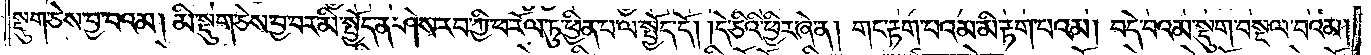སྡུག་ཅེས་བྱ་བའམ། མི་སྡུག་ཅེས་བྱ་བར་མི་སྤྱོད་ན་ཤེས་རབ་ཀྱི་ཕ་རོལ་ཏུ་ཕྱིན་པ་ལ་སྤྱོད་དོ། །དེ་ཅིའི་ཕྱིར་ཞེ་ན། གང་རྟག་པའམ་མི་རྟག་པའམ། བདེ་བའམ་སྡུག་བསྔལ་པའམ།
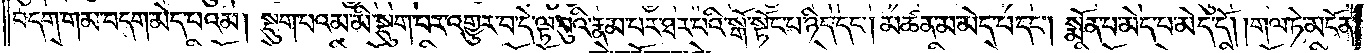བདག་གམ་བདག་མེད་པའམ། སྡུག་པའམ་མི་སྡུག་པར་འགྱུར་བདེ་ལྟ་བུའི་རྣམ་པར་ཐར་པའི་སྒོ་སྟོང་པ་ཉིད་དང༌། མཚན་མ་མེད་པ་དང༌། སྨོན་པ་མེད་པ་མེད་དོ། །གལ་ཏེ་མངོན་
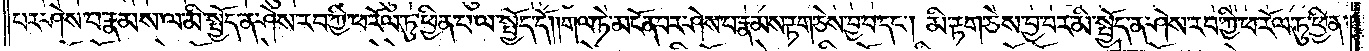པར་ཤེས་པ་རྣམས་ལ་མི་སྤྱོད་ན་ཤེས་རབ་ཀྱི་ཕ་རོལ་ཏུ་ཕྱིན་པ་ལ་སྤྱོད་དོ། །གལ་ཏེ་མངོན་པར་ཤེས་པ་རྣམས་རྟག་ཅེས་བྱ་བ་དང༌། མི་རྟག་ཅེས་བྱ་བར་མི་སྤྱོད་ན་ཤེས་རབ་ཀྱི་ཕ་རོལ་ཏུ་ཕྱིན་
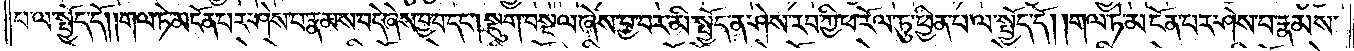པ་ལ་སྤྱོད་དོ། །གལ་ཏེ་མངོན་པར་ཤེས་པ་རྣམས་བདེ་ཞེས་བྱ་བ་དང༌། སྡུག་བསྔལ་ཞེས་བྱ་བར་མི་སྤྱོད་ན་ཤེས་རབ་ཀྱི་ཕ་རོལ་ཏུ་ཕྱིན་པ་ལ་སྤྱོད་དོ། །གལ་ཏེ་མངོན་པར་ཤེས་པ་རྣམས་
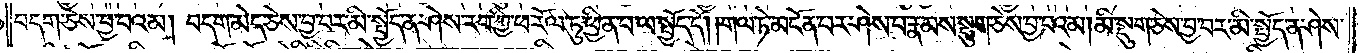བདག་ཅེས་བྱ་བའམ། བདག་མེད་ཅེས་བྱ་བར་མི་སྤྱོད་ན་ཤེས་རབ་ཀྱི་ཕ་རོལ་ཏུ་ཕྱིན་པ་ལ་སྤྱོད་དོ། །གལ་ཏེ་མངོན་པར་ཤེས་པ་རྣམས་སྡུག་ཅེས་བྱ་བའམ། མི་སྡུག་ཅེས་བྱ་བར་མི་སྤྱོད་ན་ཤེས་
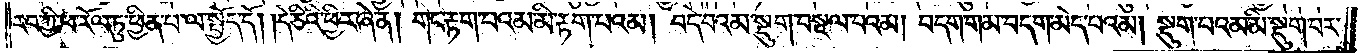རབ་ཀྱི་ཕ་རོལ་ཏུ་ཕྱིན་པ་ལ་སྤྱོད་དོ། །དེ་ཅིའི་ཕྱིར་ཞེ་ན། གང་རྟག་པའམ་མི་རྟག་པའམ། བདེ་བའམ་སྡུག་བསྔལ་བའམ། བདག་གམ་བདག་མེད་པའམ། སྡུག་པའམ་མི་སྡུག་པར་
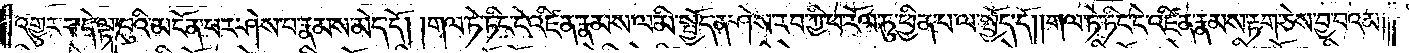འགྱུར་བ་དེ་ལྟ་བུའི་མངོན་པར་ཤེས་པ་རྣམས་མེད་དོ། །གལ་ཏེ་ཏིང་ངེ་འཛིན་རྣམས་ལ་མི་སྤྱོད་ན་ཤེས་རབ་ཀྱི་ཕ་རོལ་ཏུ་ཕྱིན་པ་ལ་སྤྱོད་དོ། །གལ་ཏེ་ཏིང་ངེ་འཛིན་རྣམས་རྟག་ཅེས་བྱ་བའམ།
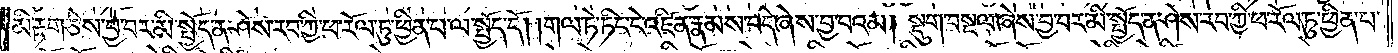མི་རྟག་ཅེས་བྱ་བར་མི་སྤྱོད་ན་ཤེས་རབ་ཀྱི་ཕ་རོལ་ཏུ་ཕྱིན་པ་ལ་སྤྱོད་དོ། །གལ་ཏེ་ཏིང་ངེ་འཛིན་རྣམས་བདེ་ཞེས་བྱ་བའམ། སྡུག་བསྔལ་ཞེས་བྱ་བར་མི་སྤྱོད་ན་ཤེས་རབ་ཀྱི་ཕ་རོལ་ཏུ་ཕྱིན་པ་
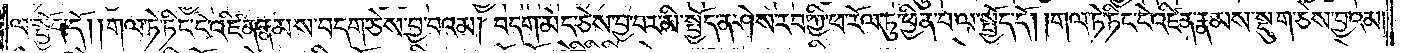ལ་སྤྱོད་དོ། །གལ་ཏེ་ཏིང་ངེ་འཛིན་རྣམས་བདག་ཅེས་བྱ་བའམ། བདག་མེད་ཅེས་བྱ་བར་མི་སྤྱོད་ན་ཤེས་རབ་ཀྱི་ཕ་རོལ་ཏུ་ཕྱིན་པ་ལ་སྤྱོད་དོ། །གལ་ཏེ་ཏིང་ངེ་འཛིན་རྣམས་སྡུག་ཅེས་བྱའམ།
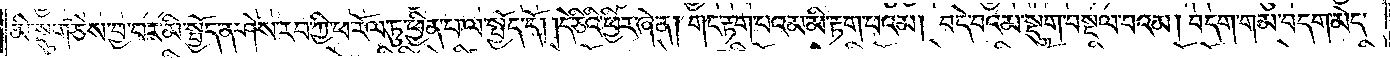མི་སྡུག་ཅེས་བྱ་བར་མི་སྤྱོད་ན་ཤེས་རབ་ཀྱི་ཕ་རོལ་ཏུ་ཕྱིན་པ་ལ་སྤྱོད་དོ། །དེ་ཅིའི་ཕྱིར་ཞེ་ན། གང་རྟག་པའམ་མི་རྟག་པའམ། བདེ་བའམ་སྡུག་བསྔལ་བའམ། བདག་གམ་བདག་མེད་
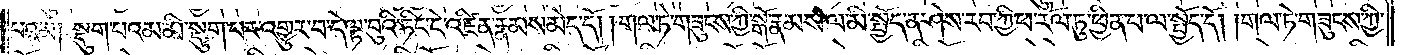པའམ། སྡུག་པའམ་མི་སྡུག་པར་འགྱུར་བ་དེ་ལྟ་བུའི་ཏིང་ངེ་འཛིན་རྣམས་མེད་དོ། །གལ་ཏེ་གཟུངས་ཀྱི་སྒོ་རྣམས་ལ་མི་སྤྱོད་ན་ཤེས་རབ་ཀྱི་ཕ་རོལ་ཏུ་ཕྱིན་པ་ལ་སྤྱོད་དོ། །གལ་ཏེ་གཟུངས་ཀྱི་
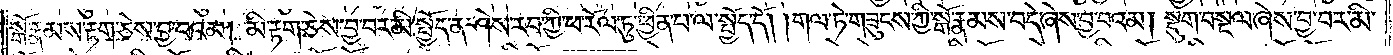སྒོ་རྣམས་རྟག་ཅེས་བྱ་བའམ། མི་རྟག་ཅེས་བྱ་བར་མི་སྤྱོད་ན་ཤེས་རབ་ཀྱི་ཕ་རོལ་ཏུ་ཕྱིན་པ་ལ་སྤྱོད་དོ། །གལ་ཏེ་གཟུངས་ཀྱི་སྒོ་རྣམས་བདེ་ཞེས་བྱ་བའམ། སྡུག་བསྔལ་ཞེས་བྱ་བར་མི་
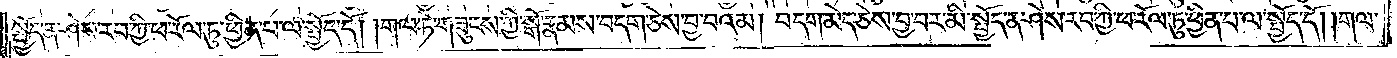སྤྱོད་ན་ཤེས་རབ་ཀྱི་ཕ་རོལ་ཏུ་ཕྱིན་པ་ལ་སྤྱོད་དོ། །གལ་ཏེ་གཟུངས་ཀྱི་སྒོ་རྣམས་བདག་ཅེས་བྱ་བའམ། བདག་མེད་ཅེས་བྱ་བར་མི་སྤྱོད་ན་ཤེས་རབ་ཀྱི་ཕ་རོལ་ཏུ་ཕྱིན་པ་ལ་སྤྱོད་དོ། །གལ་
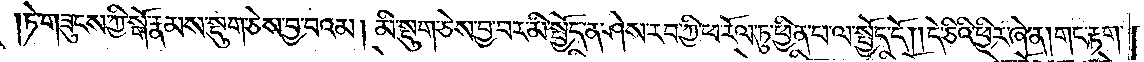ཏེ་གཟུངས་ཀྱི་སྒོ་རྣམས་སྡུག་ཅེས་བྱ་བའམ། མི་སྡུག་ཅེས་བྱ་བར་མི་སྤྱོད་ན་ཤེས་རབ་ཀྱི་ཕ་རོལ་ཏུ་ཕྱིན་པ་ལ་སྤྱོད་དོ། །དེ་ཅིའི་ཕྱིར་ཞེ་ན། གང་རྟག་
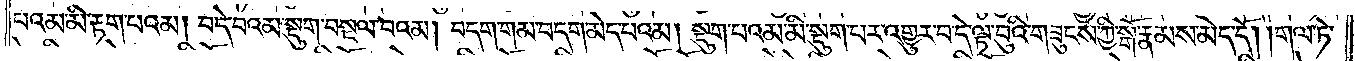པའམ་མི་རྟག་པའམ། བདེ་བའམ་སྡུག་བསྔལ་བའམ། བདག་གམ་བདག་མེད་པའམ། སྡུག་པའམ་མི་སྡུག་པར་འགྱུར་བ་དེ་ལྟ་བུའི་གཟུངས་ཀྱི་སྒོ་རྣམས་མེད་དོ། །གལ་ཏེ་
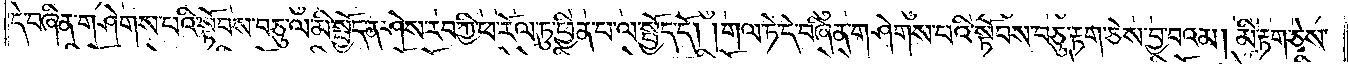དེ་བཞིན་གཤེགས་པའི་སྟོབས་བཅུ་ལ་མི་སྤྱོད་ན་ཤེས་རབ་ཀྱི་ཕ་རོལ་ཏུ་ཕྱིན་པ་ལ་སྤྱོད་དོ། །གལ་ཏེ་དེ་བཞིན་གཤེགས་པའི་སྟོབས་བཅུ་རྟག་ཅེས་བྱ་བའམ། མི་རྟག་ཅེས་
